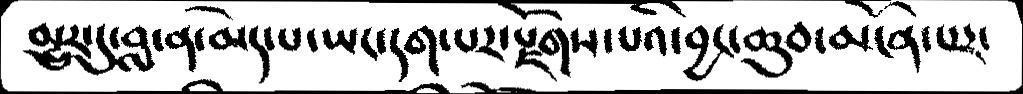མྱུར་དུ་བླ་ན་མེད་པ་ཡང་དག་པར་སྫོགས་པའི་བྱང་ཆུབ་མངོན་པར་
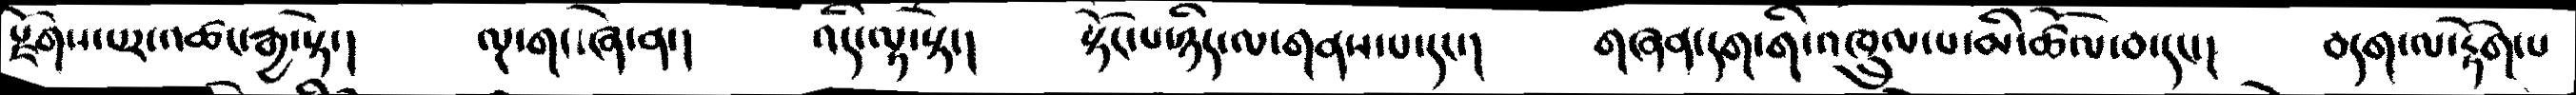སྫོགས་པར་འཚང་རྒྱ་སྟེ་།     ལྔ་གང་ཞེ་ན་།     འདི་ལྟ་སྟེ་།      སྟོང་པ་ཉིད་ལ་གནས་པ་དང་།    གཞན་དག་གི་འཁྲུལ་པ་མི་ཚོལ་བ་དང་།    བདག་ལ་རྟོག་པ
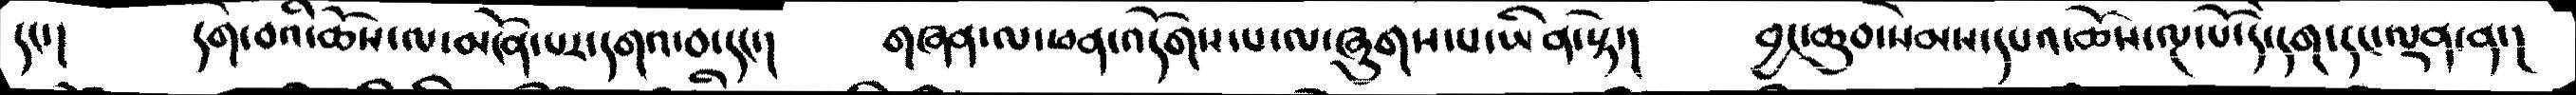དང་།      དགེ་བའི་ཆོས་ལ་མངོན་པར་དགའ་བ་དང་།     གཞན་ལ་ཕན་འདོགས་པ་ལ་ཞུགས་ཡིན་སྟེ་།     བྱང་ཆུབ་སེམས་དཔའ་ཆོས་ལྔ་པོ་དེ་དག་དང་ལྡན་ན་།
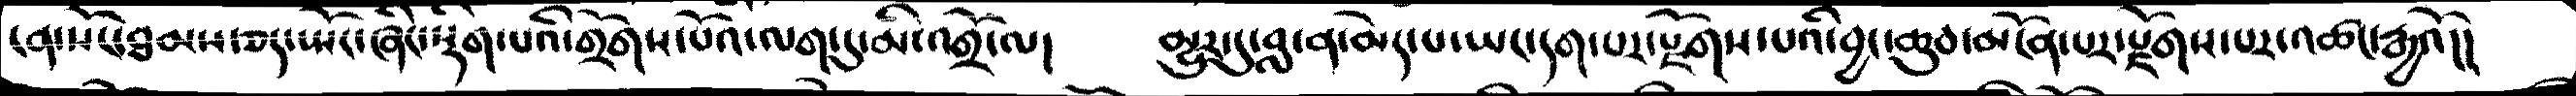ངན་སོང་ཐམས་ཅད་སྤོང་ཞིང་སྡིག་པའི་གྲོགས་པོའི་ལག་དུ་མི་འགྲོ་ལ།      མྱུར་དུ་བླ་ན་མེད་པ་ཡང་དག་པར་སྫོགས་པའི་བྱང་ཆུབ་མངོན་པར་སྫོགས་པར་འཚང་རྒྱའོ།།
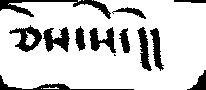ཅེས་སོ་།།
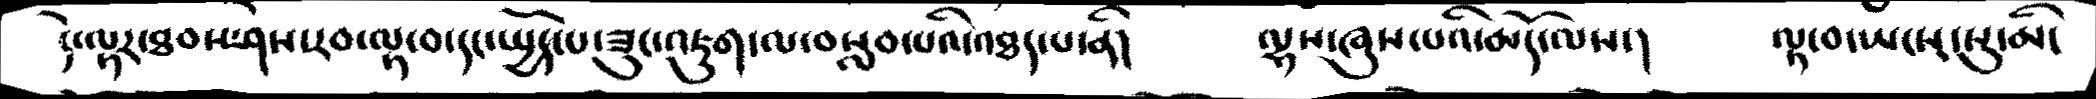དེ་ལྟར་ཐམས་ཤེས་རབ་ལྟ་བ་དང་ཡྱོད་པ་ཟུང་འཇུག་ལ་བསླབ་པའི་འཐད་པ་ནི།   ལྷས་ཞུས་པའི་མདོ་ལས་།    ལྟ་བ་ཡངས་སུ་མི་
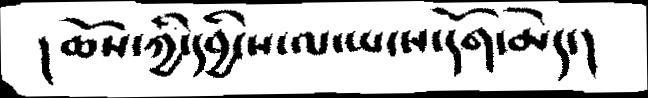།ཆོས་ཀྱི་དབྱིངས་ལ་ཡངས་དོག་མེད་།
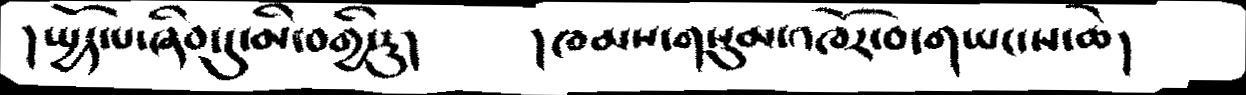།ཡྱོད་པ་ཞིབ་དུ་མི་བགྱི་རུ།    །ཁམས་གསུམ་འཁོར་བ་གཡང་ས་ཆེ།
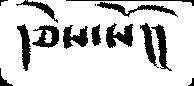།ཅེས་སོ།།
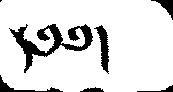༅༅།
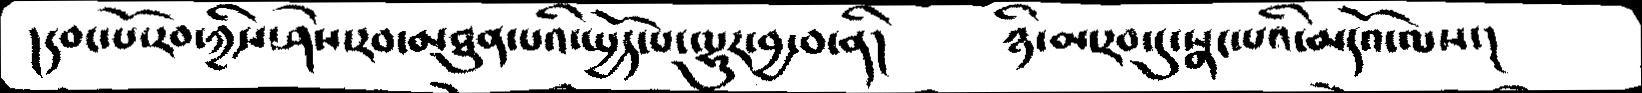།དབང་པོ་རབ་ཀྱིས་ཤེས་རབ་མཐུན་པའི་ཡྱོད་པ་ལྷུར་བྱ་བ་ནི།      ཉི་མ་རབ་དུ་སྣང་པའི་མདོའ་ལས་།
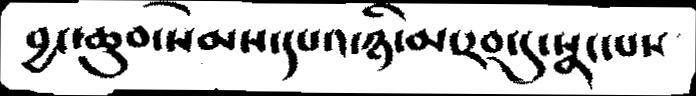བྱང་ཆུབ་སེམས་དཔའ་ཉི་མ་རབ་དུ་སྣང་པས་
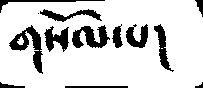གསོལ་པ།
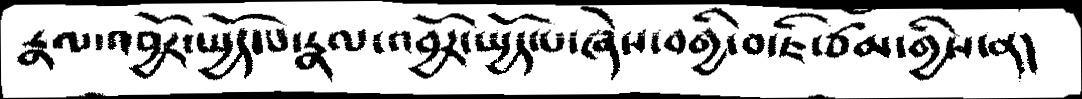རྣལ་འབྱོར་ཡྱོདད་པ་རྣལ་འབྱོར་ཡྱོད་པ་ཞེས་བགྱི་བ་ཇི་ཙམ་གྱིས་ན།
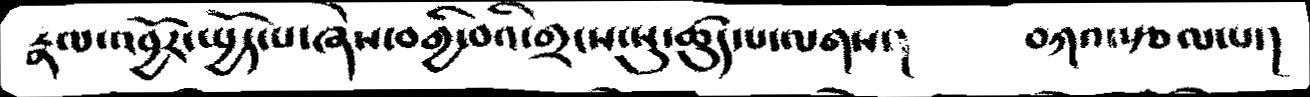རྣལ་འབྱོར་ཡྱོད་པ་ཞེས་བགྱི་བའི་གྲངས་སུ་ཚུད་པ་ལགས་།     བཀའ་རྩལ་པ་།
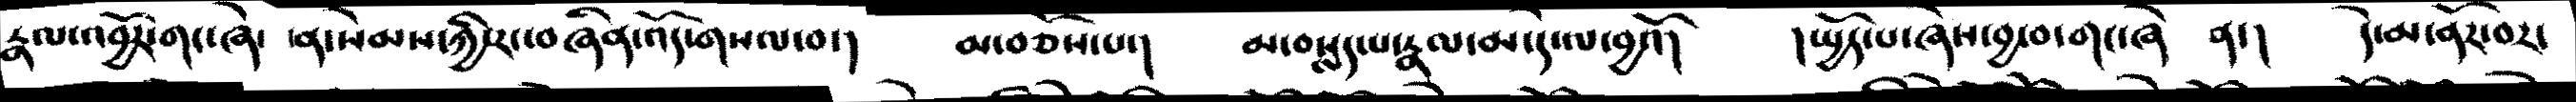རྣལ་འབྱོར་གང་ཞེ་  ན་སེམས་ཀྱི་རང་བཞིན་འོད་གསལ་བ་།    མ་བཅོས་པ་།    མ་བསླད་པ་རྣལ་མ་དེ་ལ་བྱའོ།     །ཡྱོད་པ་ཞེས་བྱ་བ་གང་ཞེ་ ན་།   དེ་མ་ནོར་བར་
